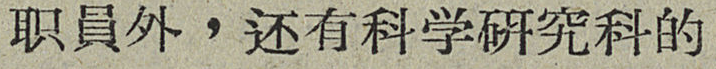职員外，还有科学研究科的
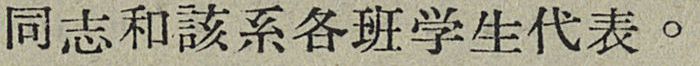同志和該系各班学生代表。
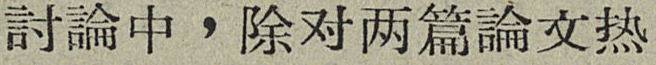討論中，除对两篇論文热
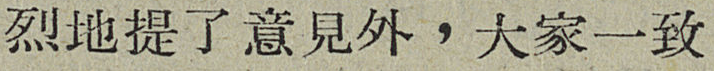烈地提了意見外，大家一致
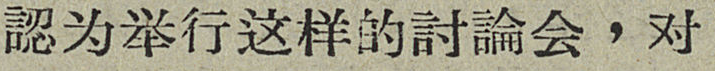認为举行这样的討論会，对
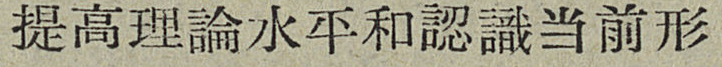提高理論水平和認識当前形
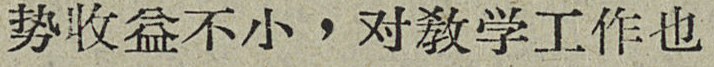势收益不小，对敎学工作也
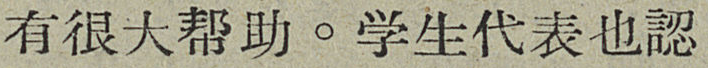有很大帮助。学生代表也認
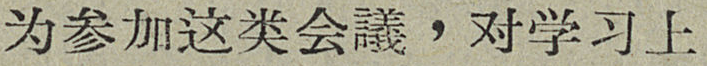为参加这类会議，对学习上
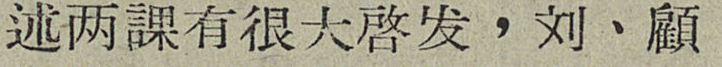述两課有很大啓发，刘、顧
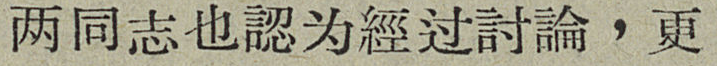两同志也認为經过討論，更
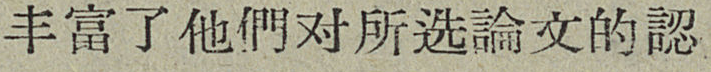丰富了他們对所选論文的認
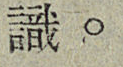識。
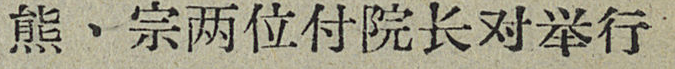熊、宗两位付院长对举行
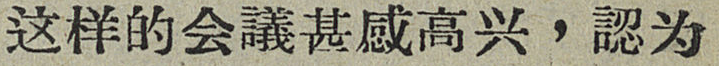这样的会議甚感高兴，認为
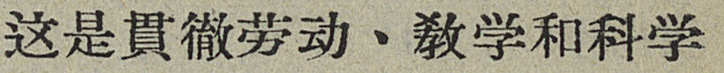这是貫徹劳动、敎学和科学
